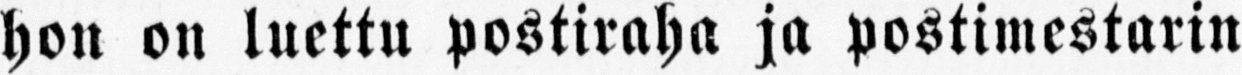hon on luettu postiraha ja postimestarin
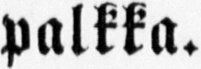palkka.
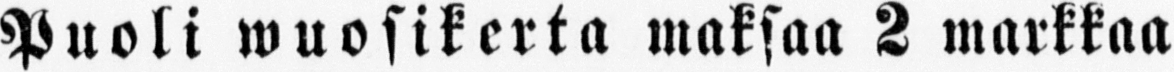Puoli wuosikerta maksaa 2 markkaa
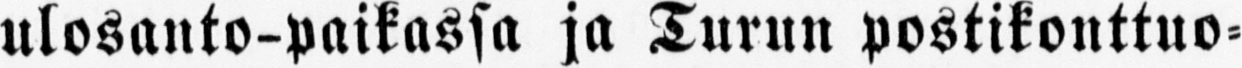ulosanto-paikassa ja Turun postikonttuo-
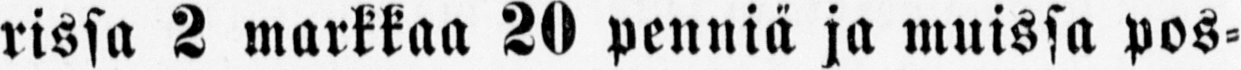rissa 2 markkaa 20 penniä ja muissa pos-
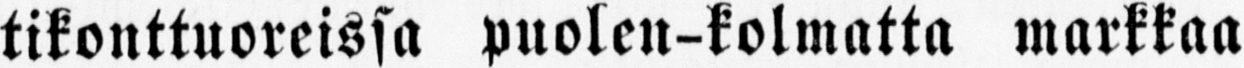tikonttuoreissa puolen-kolmatta markkaa
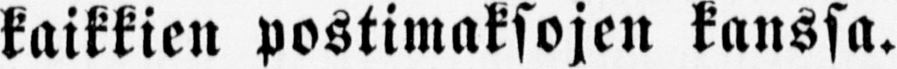kaikkien postimaksojen kanssa.
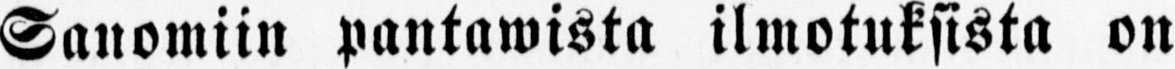Sanomiin pantawista ilmotuksista on
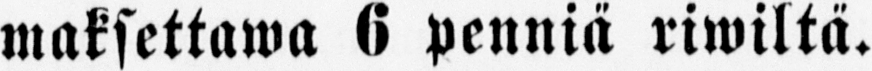maksettawa 6 penniä riwiltä.
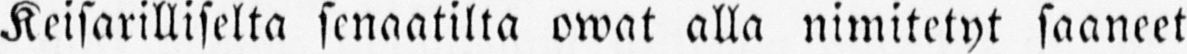Keisarilliselta senaatilta owat alla nimitetyt saaneet
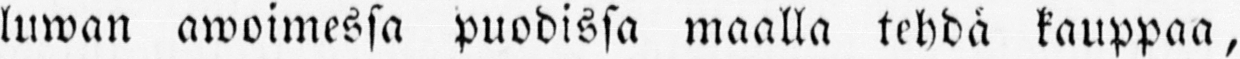luwan awoimessa puodissa maalla tehdä kauppaa,
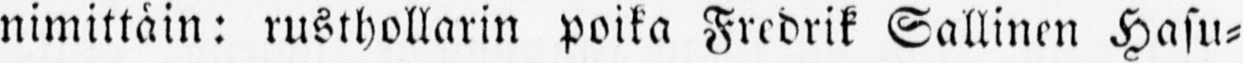nimittäin: rusthollarin poika Fredrik Sallinen Hasu-
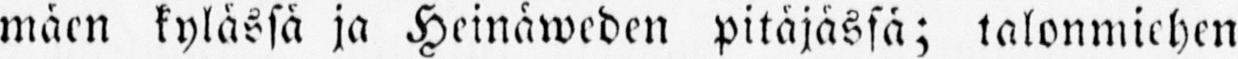mäen kylässä ja Heinäweden pitäjässä; talonmiehen
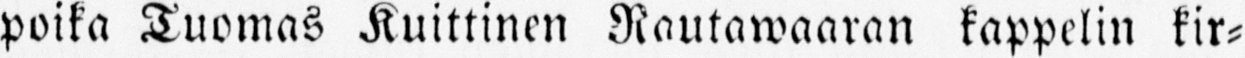poika Tuomas Kuittinen Rautawaaran kappelin kir-
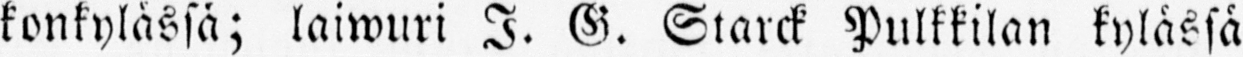konkylässä; laiwuri I. G. Starck Pulkkilan kylässä
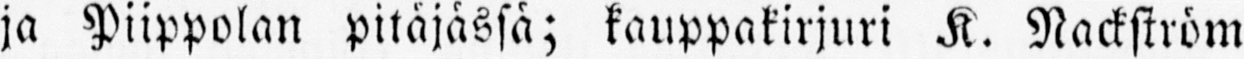ja Piippolan pitäjässä; kauppakirjuri K. Nackström
